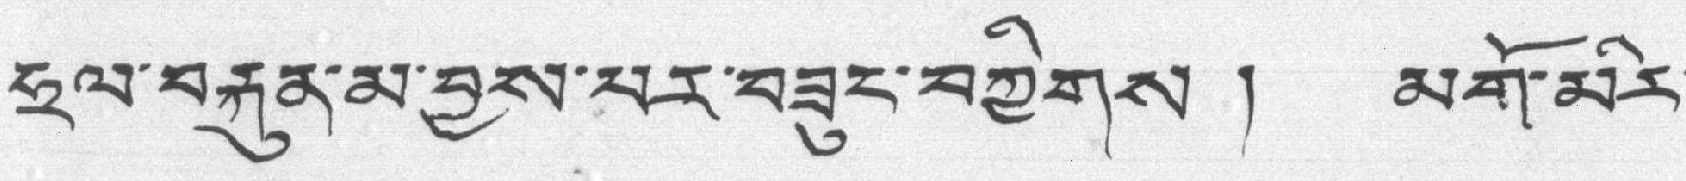ཧྲལ་བརྐུན་མ་བྱས་པར་བཟུང་བཀྱིགས། མགོ་མིར་
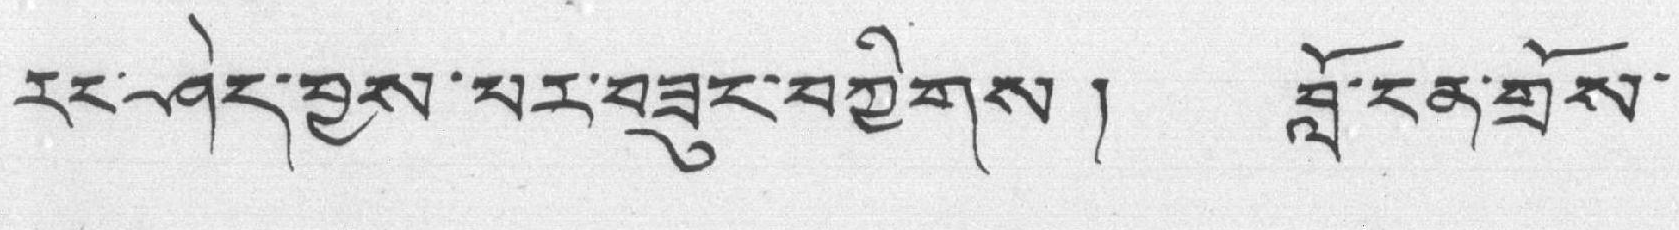རར་ཤེད་བྱས་པར་བཟུང་བཀྱིགས། བློ་ངན་གྲོས་
